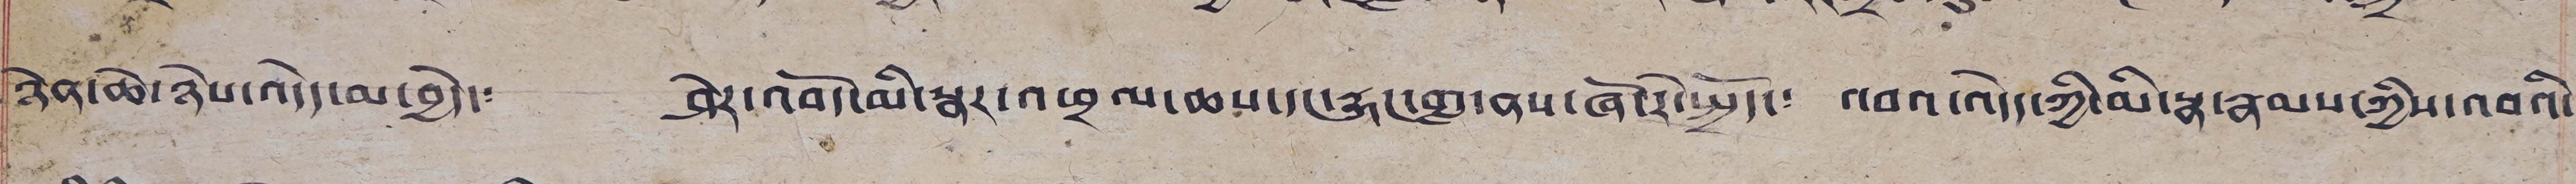ཉེན་ཆེ་ཉེས་འདེད་མ་བྱེད་༴ ཤེར་འབོད་མི་སྣར་འཕྲལ་ཆས་དང་རྐང་གླ་ནས་ཞོ་རེ་སྤྱོད་༴ འབའ་འདེད་ཀྱི་མི་སྣ་རྣམས་ཀྱིས་འབའི་
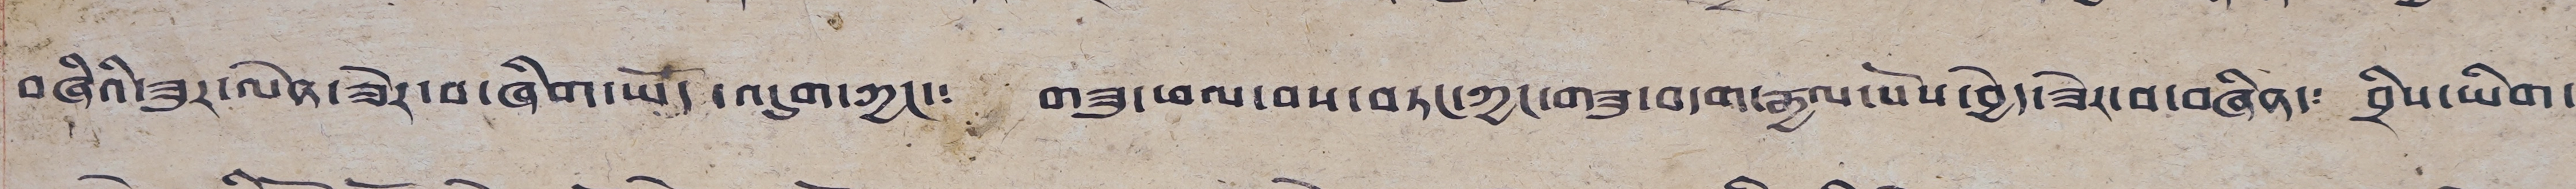བཞིའི་ཟུར་ལེན་ཟེར་བ་ཞིག་ཡོད་འདུག་ཀྱང་༴ གཟུ་ཕལ་བས་བཏང་ཀྱང་གཟུ་བདག་རྒྱལ་པོས་བྱེད་ཟེར་བ་བཞིན་༴ བྲིས་ཡིག་
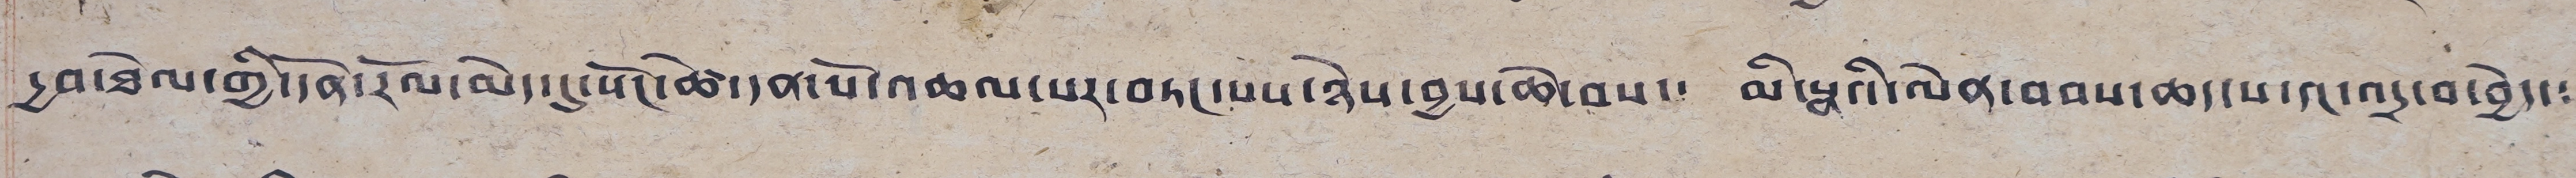དྱབ་ཟེལ་གྱི་དོན་རོལ་མེད་དུ་སོང་ཚེ་དན་པོ་འཆལ་པར་བཏང་པས་ཉེས་བྱས་ཆེ་བས་༴ མི་སྣའི་ལེན་བབས་ཆད་པ་དང་འདྲ་བ་བྱེད་༴
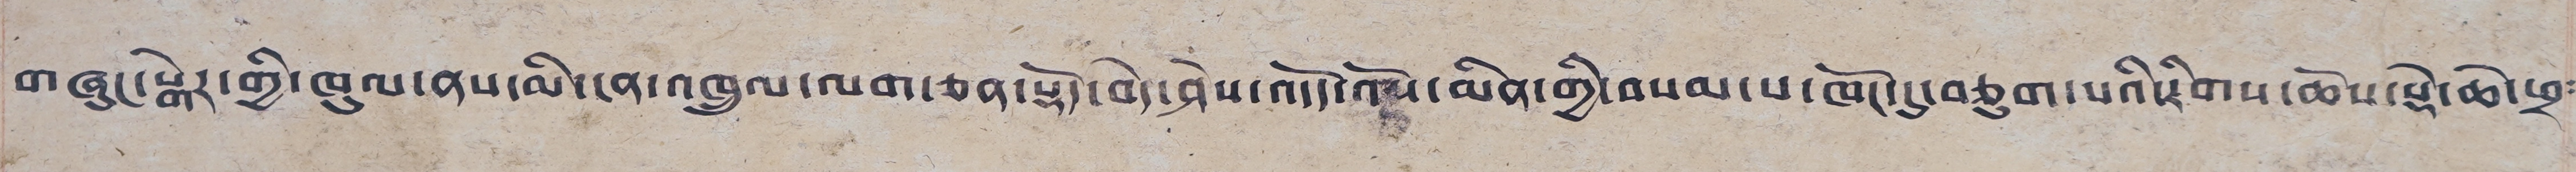གཞུང་སྒེར་གྱི་ཁུལ་ནས་མི་ངན་འཁྲུལ་ལག་ཅན་སྡོད་བེད་ཤེས་འདོད་འོས་མིན་གྱི་བསམ་པ་ཁོང་དུ་བཅུག་པའི་རིགས་ཆེས་སྡེ་ཆེ་ཕྲ༴
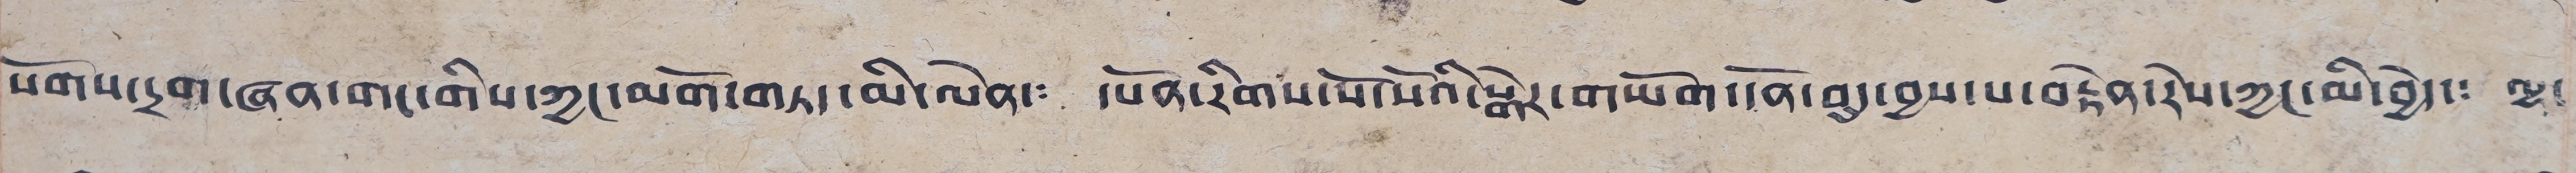སོགས་དྲག་ཞན་གང་གིས་ཀྱང་མགོ་གཏད་མི་ལེན་༴ དཔོན་རིགས་སོ་སོའི་སྒེར་གཡོག་དོན་བུད་བྱས་པ་བརྟེན་རེས་ཀྱང་མི་བྱེད་༴ ལྷ་
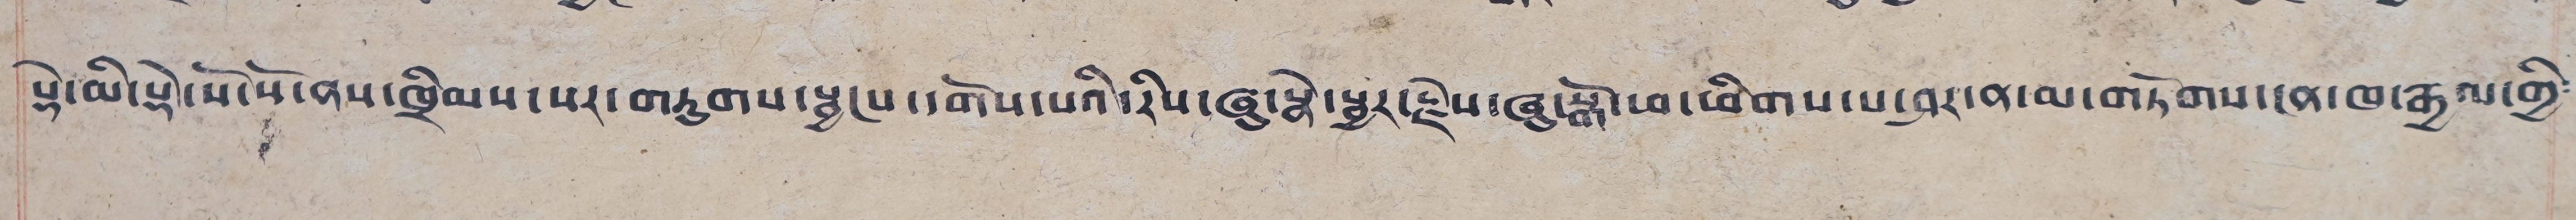སྡེ་མི་སྡེ་སོ་སོ་ནས་ཁྲིམས་པར་གཏུགས་སྦྱངས་དགེས་པའི་རིས་ཞུ་སྣེ་སྦྱར་རྗེས་ཞུ་སྒོ་ཕ་ཕིགས་པ་ཤར་ན་མ་གཏོགས་ངན་ཁ་རྒྱལ་གྱི༴
